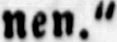nen."
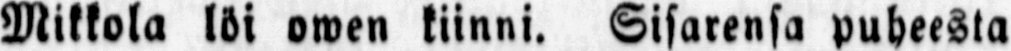Mikkola löi owen kiinni. Sisarensa puheesta
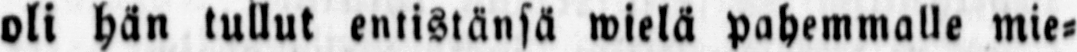oli hän tullut entistänsä wielä pahemmalle mie-
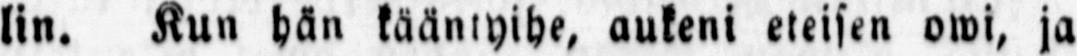lin. Kun hän kääntyihe, aukeni eteisen owi, ja
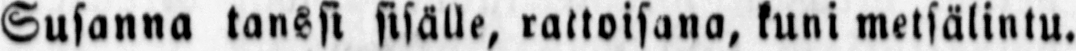Susanna tanssi sisälle, rattoisana, kuni metsälintu.
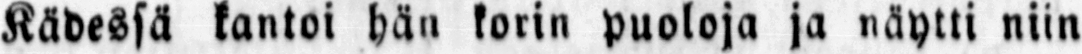Kädessä kantoi hän korin puoloja ja näytti niin
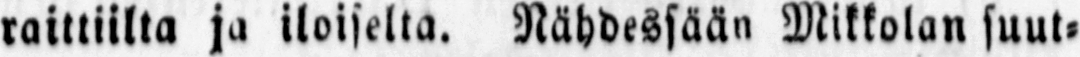raittiilta ja iloiselta. Nähdessään Mikkolan suut-
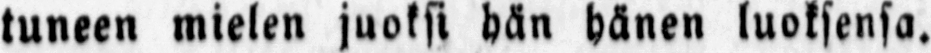tuneen mielen juoksi hän hänen luoksensa.
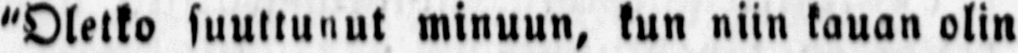"Oletko suuttunut minuun, kun niin kauan olin
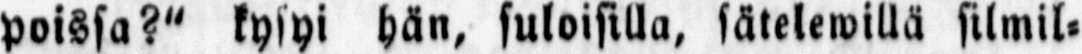poissa?" kysyi hän, suloisilla, sätelewillä silmil-
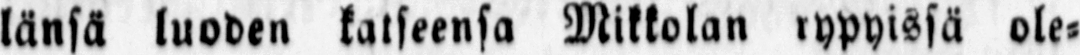länsä luoden katseensa Mikkolan rypyissä ole-
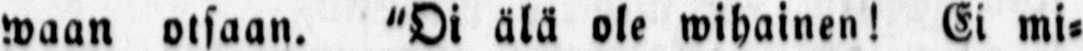waan otsaan. "Oi älä ole wihainen! Ei mi-
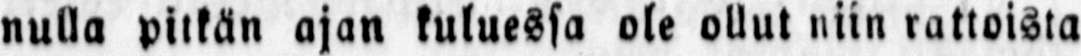nulla pitkän ajan kuluessa ole ollut niin rattoista
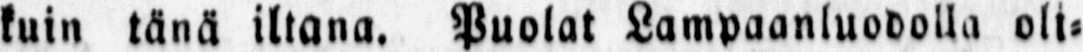kuin tänä iltana. Puolat Lampaanluodolla oli-
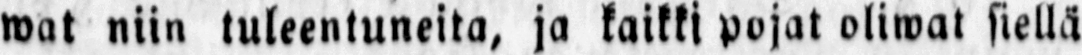wat niin tuleentuneita, ja kaikki pojat oliwat siellä
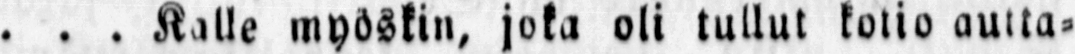. . . Kalle myöskin, joka oli tullut kotio autta-
